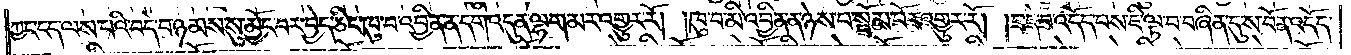ཀྱང་ངད་ལས་པའི་བདེ་བ་ཉམས་སུ་མྱོང་བར་བྱེད་ཅིང་ཁུ་བ་འབྱིན་ན་དགེ་འདུན་ལྷག་མར་འགྱུར་རོ། །ཁུ་བ་མི་འབྱིན་ན་ཉེས་པ་སྦོམ་པོར་འགྱུར་རོ། །བདེ་བ་འདོད་པས་ཇི་ལྟ་བ་བཞིན་དུ་ས་བོན་འདོད་
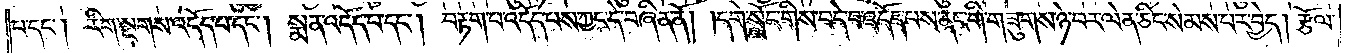པ་དང༌། རིག་སྔགས་འདོད་པ་དང༌། སྨན་འདོད་པ་དང༌། བརྟག་པ་འདོད་པས་ཀྱང་དེ་བཞིན་ནོ། །དགེ་སློང་གིས་བདེ་བ་འདོད་པས་ནང་གི་གཟུགས་ཉེ་བར་ལེན་ཅིང་སེམས་པར་བྱེད། རྩོལ་
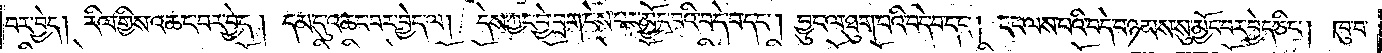པར་བྱེད། རིལ་གྱིས་འཆང་བར་བྱེད། དམ་དུ་འཆང་བར་བྱེད་ལ། དེས་ཀྱང་བྱེ་བྲག་ངེས་པར་མྱོང་བའི་བདེ་བ་དང༌། བྱུང་ལ་ཐུག་པའི་བདེ་བ་དང༌། ངད་ལས་པའི་བདེ་བ་ཉམས་སུ་མྱོང་བར་བྱེད་ཅིང༌། ཁུ་བ་
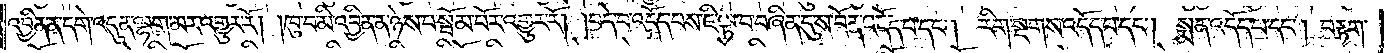འབྱིན་ན་དགེ་འདུན་ལྷག་མར་འགྱུར་རོ། །ཁུ་བ་མི་འབྱིན་ན་ཉེས་པ་སྦོམ་པོར་འགྱུར་རོ། །བདེ་བ་འདོད་པས་ཇི་ལྟ་བ་བཞིན་དུ་ས་བོན་འདོད་པ་དང༌། རིག་སྔགས་འདོད་པ་དང༌། སྨན་འདོད་པ་དང༌། བརྟག་
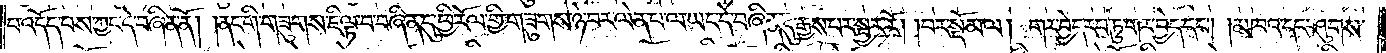པ་འདོད་པས་ཀྱང་དེ་བཞིན་ནོ། །ནང་གི་གཟུགས་ཇི་ལྟ་བ་བཞིན་དུ་ཕྱི་རོལ་གྱི་གཟུགས་ཉེ་བར་ལེན་པ་ལ་ཡང་དེ་བཞིན་དུ་རྒྱས་པར་སྦྱར་རོ། །བར་སྡོམ་ལ། གར་བྱེད་རབ་ཏུ་གར་བྱེད་དང༌། །མཁའ་དང་ཤུགས་
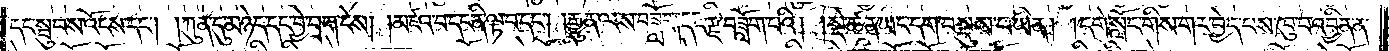དང་སྦུབས་འོངས་དང༌། །ཀུན་དུ་མཉེད་དང་བྱེ་བྲག་ངེས། །མཛའ་བ་དང་ནི་ལྟ་བ་དང༌། །རྒྱུན་ལས་བཟློག་དང་རྫི་བཟློག་པའི། །སྡེ་ཚན་ཡང་དག་བསྡུས་པ་ཡིན། །དགེ་སློང་གིས་གར་བྱེད་པས་ཁུ་བ་འབྱིན་ན་
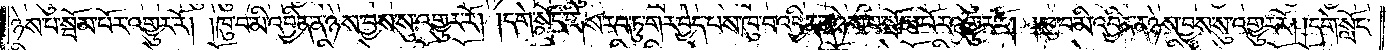ཉེས་པ་སྦོམ་པོར་འགྱུར་རོ། །ཁུ་བ་མི་འབྱིན་ན་ཉེས་བྱས་སུ་འགྱུར་རོ། །དགེ་སློང་གིས་རབ་ཏུ་གར་བྱེད་པས་ཁུ་བ་འབྱིན་ན་ཉེས་པ་སྦོམ་པོར་འགྱུར་རོ། །ཁུ་བ་མི་འབྱིན་ན་ཉེས་བྱས་སུ་འགྱུར་རོ། །དགེ་སློང་
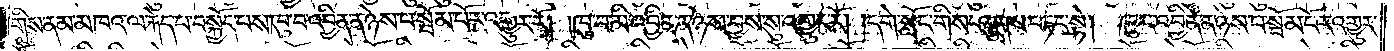གིས་ནམ་མཁའ་ལ་རྐེད་པ་བསྐྱོད་པས་ཁུ་བ་འབྱིན་ན་ཉེས་པ་སྦོམ་པོར་འགྱུར་རོ། །ཁུ་བ་མི་འབྱིན་ན་ཉེས་བྱས་སུ་འགྱུར་རོ། །དགེ་སློང་གིས་ཤུགས་བཏང་སྟེ། ཁུ་བ་འབྱིན་ན་ཉེས་པ་སྦོམ་པོར་འགྱུར་
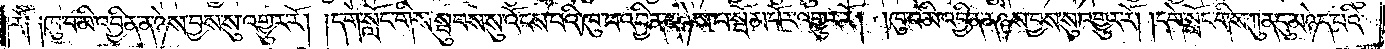རོ༑ ༑ཁུ་བ་མི་འབྱིན་ན་ཉེས་བྱས་སུ་འགྱུར་རོ། །དགེ་སློང་གིས་སྦུབས་སུ་འོངས་པའི་ཁུ་བ་འབྱིན་ན་ཉེས་པ་སྦོམ་པོར་འགྱུར་རོ། །ཁུ་བ་མི་འབྱིན་ན་ཉེས་བྱས་སུ་འགྱུར་རོ། །དགེ་སློང་གིས་ཀུན་དུ་མཉེད་པའི་
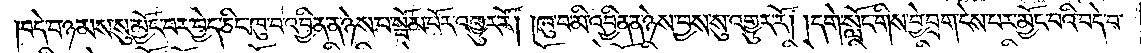བདེ་བ་ཉམས་སུ་མྱོང་བར་བྱེད་ཅིང་ཁུ་བ་འབྱིན་ན་ཉེས་པ་སྦོམ་པོར་འགྱུར་རོ། །ཁུ་བ་མི་འབྱིན་ན་ཉེས་བྱས་སུ་འགྱུར་རོ། །དགེ་སློང་གིས་བྱེ་བྲག་ངེས་པར་མྱོང་བའི་བདེ་བ་
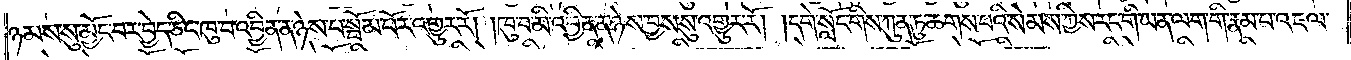ཉམས་སུ་མྱོང་བར་བྱེད་ཅིང་ཁུ་བ་འབྱིན་ན་ཉེས་པ་སྦོམ་པོར་འགྱུར་རོ། །ཁུ་བ་མི་འབྱིན་ན་ཉེས་བྱས་སུ་འགྱུར་རོ། །དགེ་སློང་གིས་ཀུན་ཏུ་ཆགས་པའི་སེམས་ཀྱིས་རང་གི་ཡན་ལག་གི་རྣམ་པ་འཇལ་
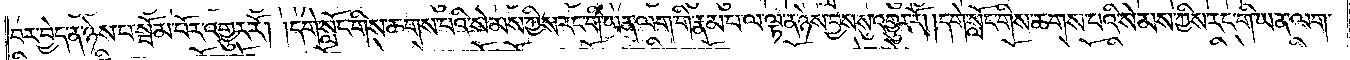བར་བྱེད་ན་ཉེས་པ་སྦོམ་པོར་འགྱུར་རོ། །དགེ་སློང་གིས་ཆགས་པའི་སེམས་ཀྱིས་རང་གི་ཡན་ལག་གི་རྣམ་པ་ལ་ལྟ་ན་ཉེས་བྱས་སུ་འགྱུར་རོ། །དགེ་སློང་གིས་ཆགས་པའི་སེམས་ཀྱིས་རང་གི་ཡན་ལག་
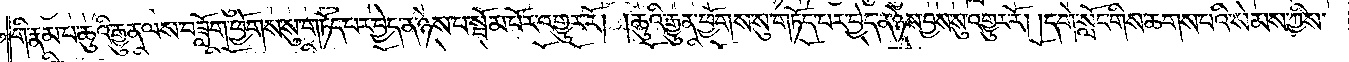གི་རྣམ་པ་ཆུའི་རྒྱུན་ལས་བཟློག་ཕྱོགས་སུ་གཏོད་པར་བྱེད་ན་ཉེས་པ་སྦོམ་པོར་འགྱུར་རོ། །ཆུའི་རྒྱུན་ཕྱོགས་སུ་གཏོད་པར་བྱེད་ན་ཉེས་བྱས་སུ་འགྱུར་རོ། །དགེ་སློང་གིས་ཆགས་པའི་སེམས་ཀྱིས་
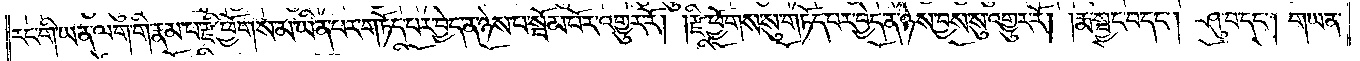རང་གི་ཡན་ལག་གི་རྣམ་པ་རྫི་ཕྱོགས་མ་ཡིན་པར་གཏོད་པར་བྱེད་ན་ཉེས་པ་སྦོམ་པོར་འགྱུར་རོ། །རྫི་ཕྱོགས་སུ་གཏོད་པར་བྱེད་ན་ཉེས་བྱས་སུ་འགྱུར་རོ། །རྨ་སྦྱང་བ་དང༌། ཤུ་བ་དང༌། གཡན་
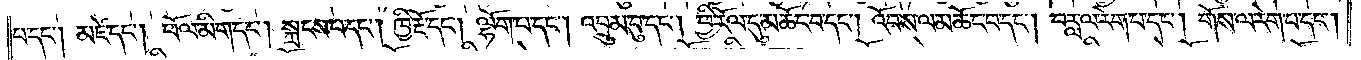པ་དང༌། མཛེ་དང༌། ཕོལ་མིག་དང༌། སྐྲངས་པ་དང༌། ཁྱི་རྔོ་དང༌། ལྷོག་པ་དང༌། འབྲུམ་བུ་དང༌། ཕྱི་རོལ་དུ་མཆོང་བ་དང༌། འོབས་ལ་མཆོང་བ་དང༌། བརླ་ལ་རེག་པ་དང༌། གོས་ལ་རེག་པ་དང༌།
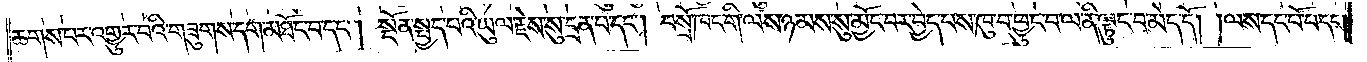ཆགས་པར་འགྱུར་བའི་གཟུགས་དག་མཐོང་བ་དང༌། སྔོན་སྤྱད་པའི་ཡུལ་རྗེས་སུ་དྲན་པ་དང༌། བསྲོ་ཁང་གི་ལས་ཉམས་སུ་མྱོང་བར་བྱེད་པས་ཁུ་བ་ཕྱུང་བ་ལ་ནི་ལྟུང་བ་མེད་དོ། །ལས་དང་པོ་པ་དང༌།
